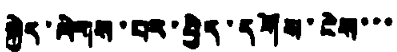སྐྱེད་ལེགས་པར་བྱེད་དགོས་ངེས་་་
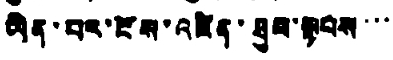ཡིན་པར་ངོས་འཛིན་ཐུབ་སྟབས་་་
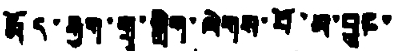རྨོད་རྒྱག་གྲྭ་སྒྲིག་ལེགས་པོ་མ་བྱུང་
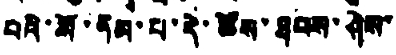བའི་སོ་ནམ་པ་དེ་ཚོས་ཐབས་ཤེས་
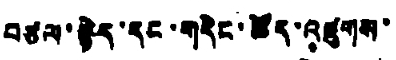བཙལ་རྙེད་དང་གདེང་ཚོད་འཛུགས་
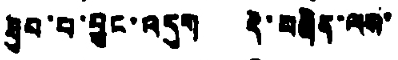ཐུབ་པ་བྱུང་འདུག དེ་བཞིན་ལས་
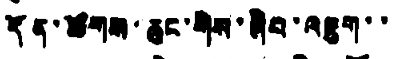དོན་ཚོགས་ཆུང་གིས་ཞིབ་འཇུག་་
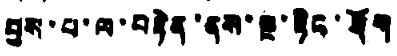བྱས་པ་ལ་བརྟེན་ནས་སྔ་རྟིང་ཐོག
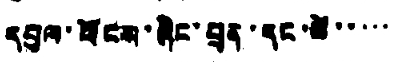དབུལ་བོངས་ཞིང་བྲན་དང་ཚེ་་་་་
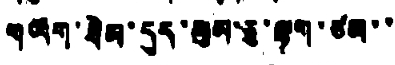གཡོག་ཐེམ་དུད་སུམ་ཅུ་ལྷག་ཙམ་་
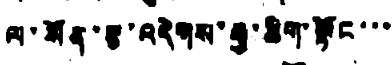ལ་སོན་རྩ་འདེགས་རྒྱ་ཆིག་སྟོང་་་
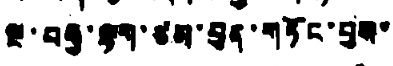ལྔ་བརྒྱ་ལྷག་ཙམ་བུན་གཏོང་བྱས་
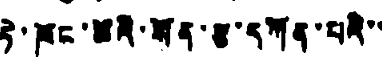ཏེ་ཁོང་ཚོའི་སོན་རྩ་དཀོན་པའི་་
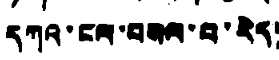དཀའ་ངལ་བསལ་བ་རེད།
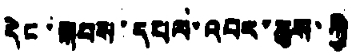དེང་སྐབས་དཔལ་འབར་ཆུས་ཀྱི
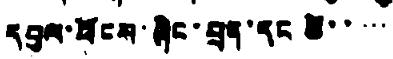དབུལ་ཕོངས་ཞིང་བྲན་དང་ཚེ་་་་་
